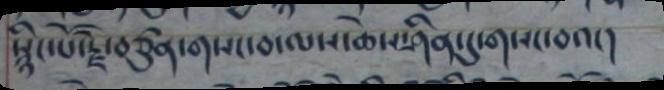སྙིང་པོ་རྗེ་བཙུན་གསང་བ་ལས་ཆེས་ཤིན་དུ་གསང་བའང་།
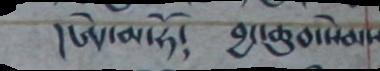།ཨེ་མ་ཧོ༴ བྱང་ཆུབ་སེམས
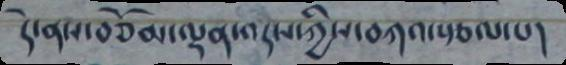ད་ེནས་བཅོམ་ལྡན་འདས་ཀྱིས་བཀའ་སྩལ་པ།
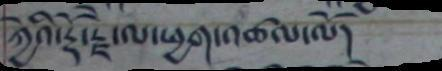ཀྱེའི་རྡོ་རྗེ་ལ་ཕྱག་འཚལ་ལོ།
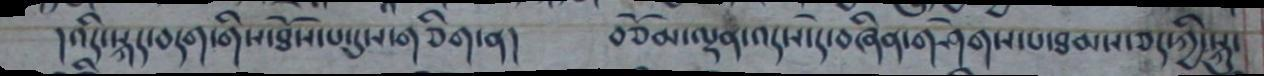།འདི་སྐད་བདག་གིས་ཐོས་པ་དུས་གཅིག་ན། བཅོམ་ལྡན་འདས་དེ་བཞིན་གཤེགས་པ་ཐམས་ཅད་ཀྱི་སྐུ་
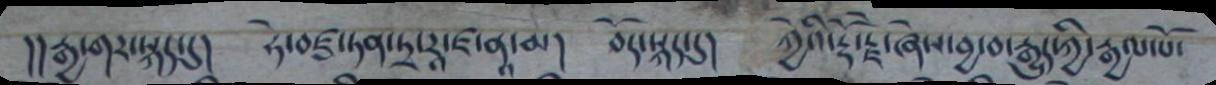།།རྒྱ་གར་སྐད་དུ། ཧེ་བཛྲ་ཏན་ཏྲ་རཱ་ཛ་ནཱ་མ། བོད་སྐད་དུ། ཀྱེའི་རྡོ་རྗེ་ཞེས་བྱ་བ་རྒྱུད་ཀྱི་རྒྱལ་པོ་
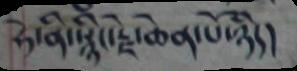ཧེ་ནི་སྙིང་རྗེ་ཆེན་པོ་ཉིད།
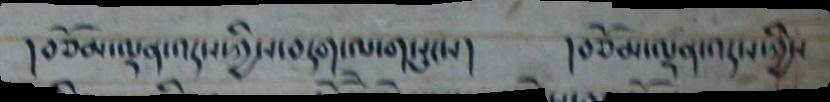།བཅོམ་ལྡན་འདས་ཀྱིས་བདག་ལ་གསུངས། །བཅོམ་ལྡན་འདས་ཀྱིས
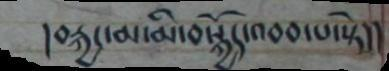།བརྐྱང་མ་མི་བསྐྱོད་འབབ་པ་སྟེ།།
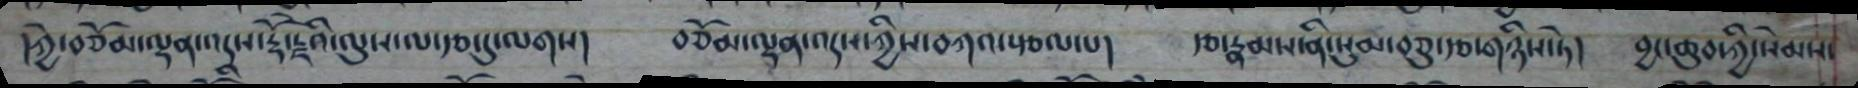།ཀྱེ་བཅོམ་ལྡན་འདས་རྡོ་རྗེའི་ལུས་ལ་རྩ་དུ་ལགས། བཅོམ་ལྡན་འདས་ཀྱིས་བཀའ་སྩལ་པ། རྩ་རྣམས་ནི་སུམ་བཅུ་རྩ་གཉིས་ཏེ། བྱང་ཆུབ་ཀྱི་སེམས་
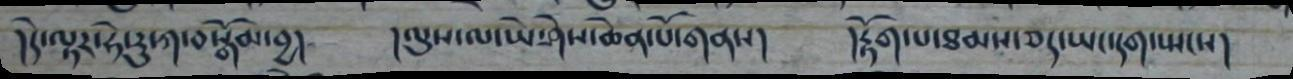།དེ་ལྟར་ཧེ་རུ་ཀ་བསྒོམ་བྱ། །ལུས་ལ་ཡེ་ཤེས་ཆེན་པོ་གནས། །རྟོག་པ་ཐམས་ཅད་ཡང་དག་སྤངས།
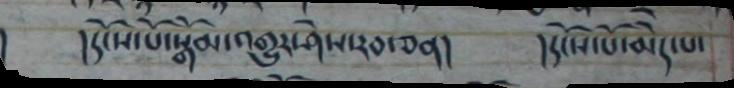། །དངོས་པོ་སྒོམ་འགྱུར་ཤེས་རབ་ཅན། །དངོས་པོ་མེད་པ་
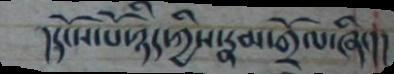།དངོས་པོ་ཉིད་ཀྱིས་རྣམ་གྲོལ་ཞིང།།
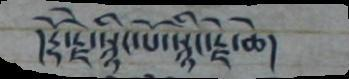།རྡོ་རྗེ་སྙིང་པོ་སྙིང་རྗེ་ཆེ།
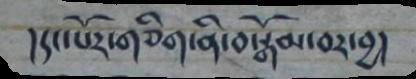།དང་པོར་གཅིག་ནི་བསྒོམབར་བྱ།
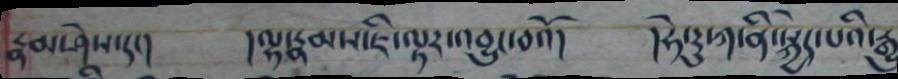རྣམ་ཤེས་དང། །ལྷ་རྣམས་ཇི་ལྟར་འབྱུང་བའོ། །ཧེ་རུ་ཀ་ནི་སྐྱེད་པའི་རྒྱུ
